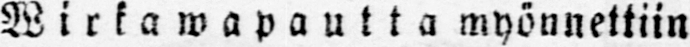Wirkawapautta myönnettiin
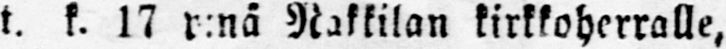t. k. 17 p:nä Nakkilan kirkkoherralle,
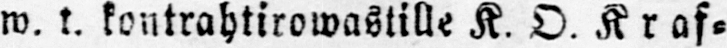w. k. kontrahtirowastille K. O. Kraf-
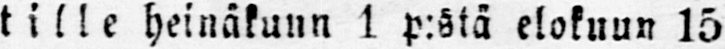tilie heinäkuun 1 p:stä elokuun 15
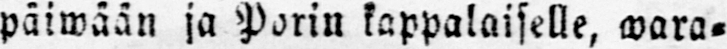päiwään ja Porin kappalaiselle, wara-
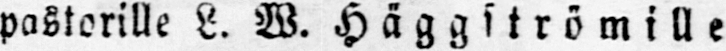pastorille L. W. Häggströmille
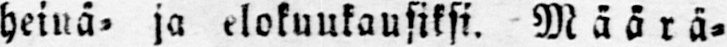heinä- ja elokuukausiksi. Määrä-
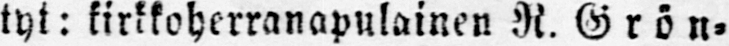tyt: kirkkoherranapulainen N. Grön-
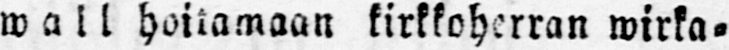wall hoitamaan kirkkoherran wirka-
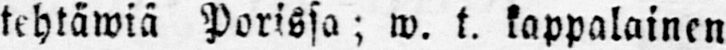tehtäwiä Porissa; w. t. kappalainen
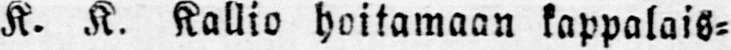K. K. Kallio hoitamaan kappalais-
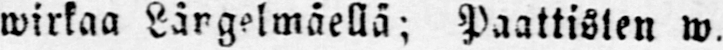wirkaa Längelmäellä; Paattisten w.
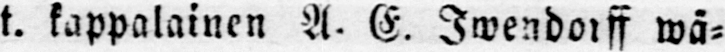t. kappalainen A. E. Iwendoriff wä-
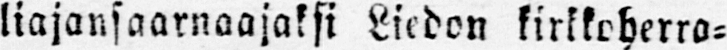liajansaarnoajaksi Liedon kirkkoherra-
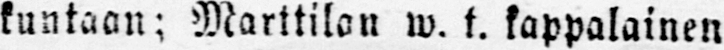kuntaan; Marttilan w. t. kappalainen
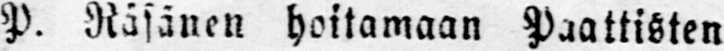P. Räsänen hoitamaan Paattisten
